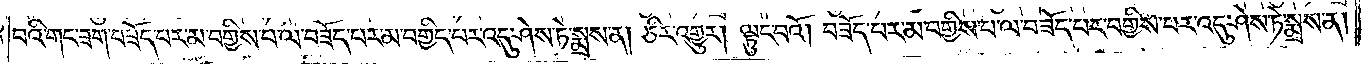བའི་གང་ཟག་བཟོད་པར་མ་བགྱིས་པ་ལ་བཟོད་པར་མ་བགྱིད་པར་འདུ་ཤེས་ཏེ་སྨྲས་ན། ཅིར་འགྱུར། ལྟུང་བའོ། བཟོད་པར་མ་བགྱིས་པ་ལ་བཟོད་པར་བགྱིས་པར་འདུ་ཤེས་ཏེ་སྨྲས་ན།
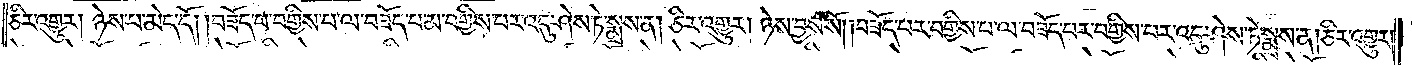ཅིར་འགྱུར། ཉེས་པ་མེད་དོ། །བཟོད་པ་བགྱིས་པ་ལ་བཟོད་པ་མ་བགྱིས་པར་འདུ་ཤེས་ཏེ་སྨྲས་ན། ཅིར་འགྱུར། ཉེས་བྱས་སོ། །བཟོད་པར་བགྱིས་པ་ལ་བཟོད་པར་བགྱིས་པར་འདུ་ཤེས་ཏེ་སྨྲས་ན། ཅིར་འགྱུར་
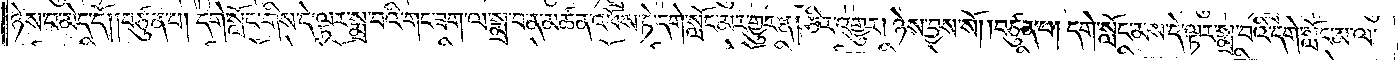ཉེས་པ་མེད་དོ། །བཙུན་པ། དགེ་སློང་གིས་དེ་ལྟར་སྨྲ་བའི་གང་ཟག་ལ་སྨྲ་བ་ན་མཚན་འཕོས་ཏེ་དགེ་སློང་མར་གྱུར་ན། ཅིར་འགྱུར། ཉེས་བྱས་སོ། །བཙུན་པ། དགེ་སློང་མས་དེ་ལྟར་སྨྲ་བའི་དགེ་སློང་མ་ལ་
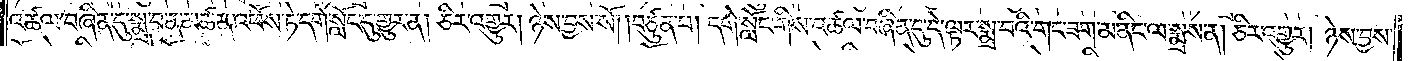འཚལ་བཞིན་དུ་སྨྲ་བ་ན་མཚན་འཕོས་ཏེ་དགེ་སློང་དུ་གྱུར་ན། ཅིར་འགྱུར། ཉེས་བྱས་སོ། །བཙུན་པ། དགེ་སློང་གིས་འཚལ་བཞིན་དུ་དེ་ལྟར་སྨྲ་བའི་གང་ཟག་མ་ནིང་ལ་སྨྲས་ན། ཅིར་འགྱུར། ཉེས་བྱས་
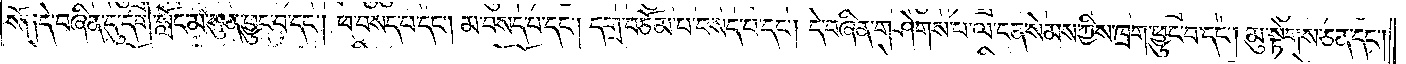སོ༑ ༑དེ་བཞིན་དུ་དགེ་སློང་མ་སུན་ཕྱུང་བ་དང༌། ཕ་བསད་པ་དང༌། མ་བསད་པ་དང༌། དགྲ་བཅོམ་པ་བསད་པ་དང༌། དེ་བཞིན་གཤེགས་པ་ལ་ངན་སེམས་ཀྱིས་ཁྲག་ཕྱུང་བ་དང༌། མུ་སྟེགས་ཅན་དང༌།
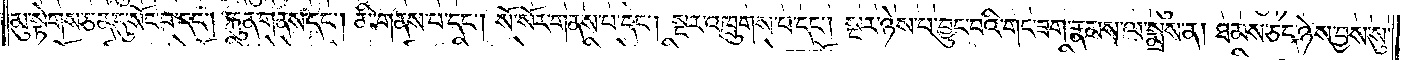མུ་སྟེགས་ཅན་དུ་སོང་བ་དང༌། རྐུན་གནས་དང༌། མི་གནས་པ་དང༌། སོ་སོར་གནས་པ་དང༌། སྔར་འཁྲུགས་པ་དང༌། སྔར་ཉེས་པ་བྱུང་བའི་གང་ཟག་རྣམས་ལ་སྨྲས་ན། ཐམས་ཅད་ཉེས་བྱས་སུ་
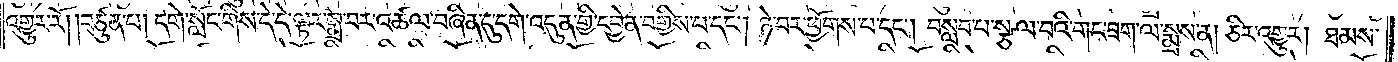འགྱུར་རོ། །བཙུན་པ། དགེ་སློང་གིས་དེ་དེ་ལྟར་སྨྲ་བར་འཚལ་བཞིན་དུ་དགེ་འདུན་གྱི་དབྱེན་བགྱིས་པ་དང༌། ཉེ་བར་ཕྱོགས་པ་དང༌། བསླབ་པ་སྩལ་བའི་གང་ཟག་ལ་སྨྲས་ན། ཅིར་འགྱུར། ཐམས་
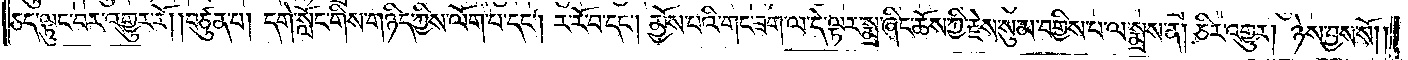ཅད་ལྟུང་བར་འགྱུར་རོ། །བཙུན་པ། དགེ་སློང་གིས་གཉིད་ཀྱིས་ལོག་པ་དང༌། ར་རོ་བ་དང༌། མྱོས་པའི་གང་ཟག་ལ་དེ་ལྟར་སྨྲ་ཞིང་ཆོས་ཀྱི་རྗེས་སུ་མ་བགྱིས་པ་ལ་སྨྲས་ན། ཅིར་འགྱུར། ཉེས་བྱས་སོ། །
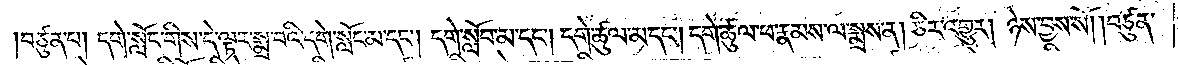།བཙུན་པ། དགེ་སློང་གིས་དེ་ལྟར་སྨྲ་བའི་དགེ་སློང་མ་དང༌། དགེ་སློབ་མ་དང༌། དགེ་ཚུལ་མ་དང༌། དགེ་ཚུལ་ཕ་རྣམས་ལ་སྨྲས་ན། ཅིར་འགྱུར། ཉེས་བྱས་སོ། །བཙུན་
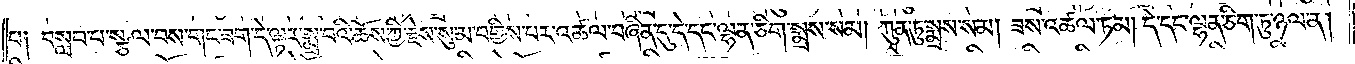པ༑ བསླབ་པ་སྩལ་བས་གང་ཟག་དེ་ལྟར་སྨྲ་བའི་ཆོས་ཀྱི་རྗེས་སུ་མ་བགྱིས་པར་འཚལ་བཞིན་དུ་དེ་དང་ལྷན་ཅིག་སྨྲས་སམ། ཀུན་ཏུ་སྨྲས་སམ། ཟས་འཚལ་ཏམ། དེ་དང་ལྷན་ཅིག་ཏུ་ཉལ་ན།
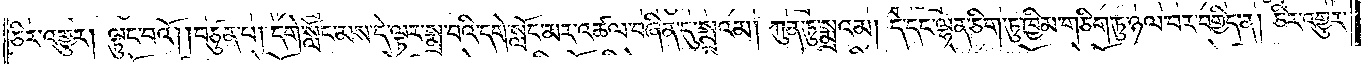ཅིར་འགྱུར། ལྟུང་བའོ། །བཙུན་པ། དགེ་སློང་མས་དེ་ལྟར་སྨྲ་བའི་དགེ་སློང་མར་འཚལ་བཞིན་དུ་སྨྲའམ། ཀུན་ཏུ་སྨྲའམ། དེ་དང་ལྷན་ཅིག་ཏུ་ཁྱིམ་གཅིག་ཏུ་ཉལ་བར་བགྱིད་ན། ཅིར་འགྱུར་
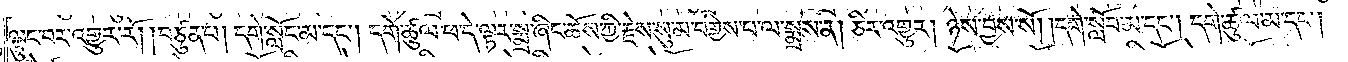ལྟུང་བར་འགྱུར་རོ། །བཙུན་པ། དགེ་སློང་མ་དང༌། དགེ་ཚུལ་ཕ་དེ་ལྟར་སྨྲ་ཞིང་ཆོས་ཀྱི་རྗེས་སུ་མ་བགྱིས་པ་ལ་སྨྲས་ན། ཅིར་འགྱུར། ཉེས་བྱས་སོ། །དགེ་སློབ་མ་དང༌། དགེ་ཚུལ་མ་དང༌།
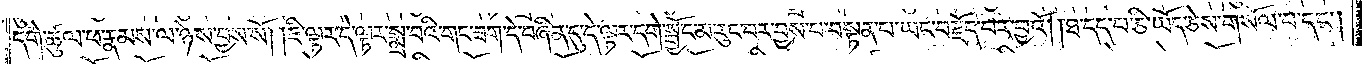དགེ་ཚུལ་ཕ་རྣམས་ལ་ཉེས་བྱས་སོ། །ཇི་ལྟར་དེ་ལྟར་སྨྲ་བའི་གང་ཟག་དེ་བཞིན་དུ་དེ་ལྟར་དགེ་སྦྱོང་མ་རུང་བར་བྱས་པ་བསྟན་པ་ཡང་བརྗོད་པར་བྱའོ། །ཐ་དད་པ་ཅི་ཡོད་ཅེས་གསོལ་པ་དང༌།
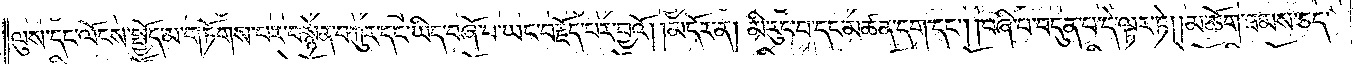ལུས་དང་ལོངས་སྤྱོད་མ་གཏོགས་པར་བསྙེན་བཀུར་དང་ཡིད་བཞོ་བ་ཡང་བརྗོད་པར་བྱའོ།    །མདོར་ན། མི་རུང་བ་དང་མཚན་དག་དང༌། །བཞི་པ་བདུན་པ་དེ་ལྟར་ཏེ། །མ་ཆོག་ཐམས་ཅད་
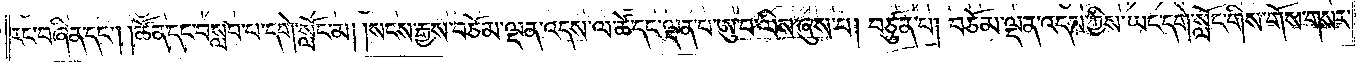རང་བཞིན་དང༌། །ཚོན་དང་བསླབ་པ་དགེ་སློང་མ། །སངས་རྒྱས་བཅོམ་ལྡན་འདས་ལ་ཚེ་དང་ལྡན་པ་ཨུ་པ་ལིས་ཞུས་པ། བཙུན་པ། བཅོམ་ལྡན་འདས་ཀྱིས་ཡང་དགེ་སློང་གིས་གོས་གསར་
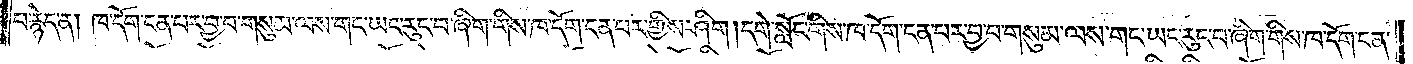པ་རྙེད་ན། ཁ་དོག་ངན་པར་བྱ་བ་གསུམ་ལས་གང་ཡང་རུང་བ་ཞིག་གིས་ཁ་དོག་ངན་པར་གྱིས་ཤིག །དགེ་སློང་གིས་ཁ་དོག་ངན་པར་བྱ་བ་གསུམ་ལས་གང་ཡང་རུང་བ་ཞིག་གིས་ཁ་དོག་ངན་
